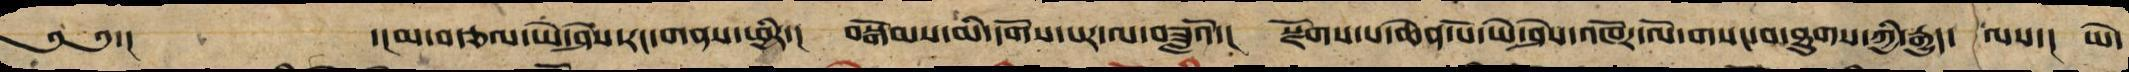༄༅་།  ་།མ་བཙལ་ཡེ་ཤེས་རང་གནས་ཕྱིར་། བསྒོམ་མི་དགོས་པར་ལ་བཟླའོ་། སྫོགས་པ་ཆེན་པོ་ཡེ་ཤེས་འཁོར་ལོ་གསང་བ་ཐུགས་ཀྱི་རྒྱུད་ལས་། ཡེ་
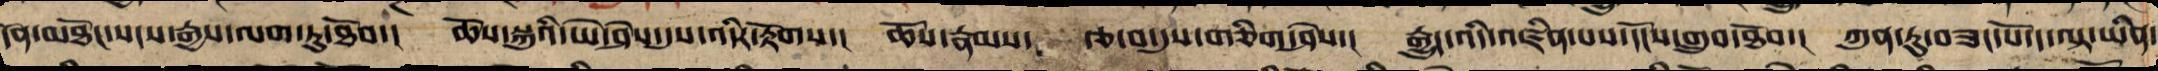དོན་མཐོང་སངས་རྒྱས་ལག་ཏུ་ཐོབ་། ཆོས་སྐུའི་ཡེ་ཤེས་དུས་འདིར་རྟོགས་། ཆོས་རྣམས་རྩ་བ་དུས་གཅིག་ཤེས་། རྒྱུད་འདི་འཛིན་པས་དངོས་གྲུབ་ཐོབ་། ཀུན་ཏུ་བཟང་པོ་ད་ལྟ་ཡིན་
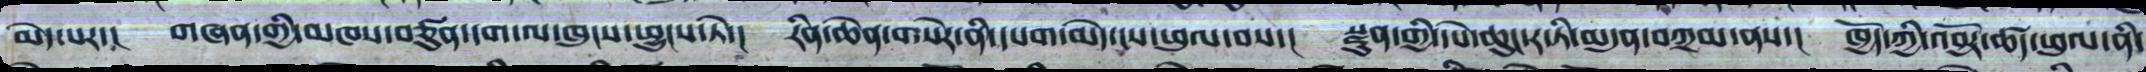མེད་པར་།  གཞན་གྱི་མཁས་བཙུན་དག་ལ་ཁུངས་ཕྱུངས་ཏེ་།  རིན་ཆེན་གསེར་ནི་དཔག་མེད་ངས་ཕུལ་བས་།  སྫུན་གྱི་དཔེ་ཆུང་ར་ཏི་མདུན་བཀྲམ་ནས་།  ཁྱོད་ཀྱི་འབྱོར་ཚད་ཕུལ་ནི་
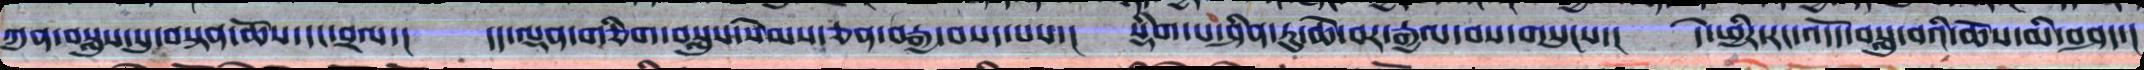ཀུན་བསླུས་སུ་བསྟན་ཆོས་དང་བྲལ་།   དད་ལྡན་གཅིག་བསླུས་སེམས་ཅན་བརྒྱ་བསད་པས་།   སྡིག་པ་ཤིན་ཏུ་ཆེ་བར་རྒྱལ་བས་གསུངས་།   དེ་ཕྱིར་རང་འདོད་བསླུ་བའི་ཆོས་མི་བཤད་།
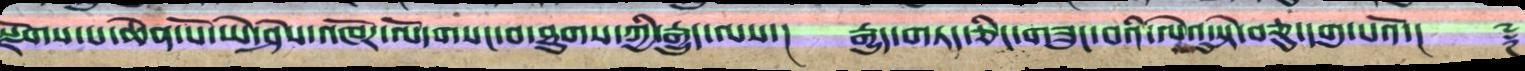སྫོགས་པ་ཆེན་པོ་ཡེ་ཤེས་འཁོར་ལོ་གསང་བ་ཐུགས་ཀྱི་རྒྱུད་ལས་།   རྒྱུད་གཏད་ཅིང་གཟུང་བའི་ལེའུ་སྟེ་བཅུ་དགུ་པའོ་།།     ༈
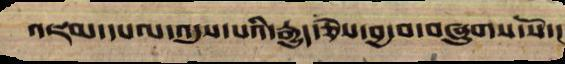འཇམ་དཔལ་འདུས་པའི་རྒྱུད་ཅེས་བྱ་བ་བཞུགས་སོ་།
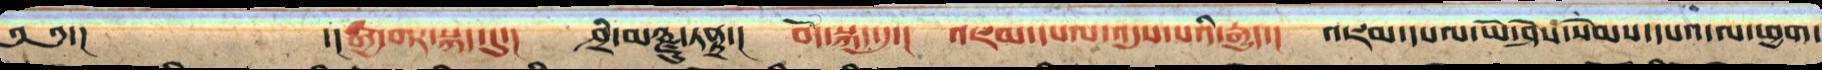༄༄་།           ་།རྒྱ་གར་སྐད་དུ།   ཤྲཱི་མཉྫུ་ཏནྟྲ་།  བོད་སྐད་དུ།  འཇམ་དཔལ་འདུས་པའི་རྒྱུད་།  འཇམ་དཔལ་ཡེ་ཤེས་སེམས་དཔའ་ལ་ཕྱག་
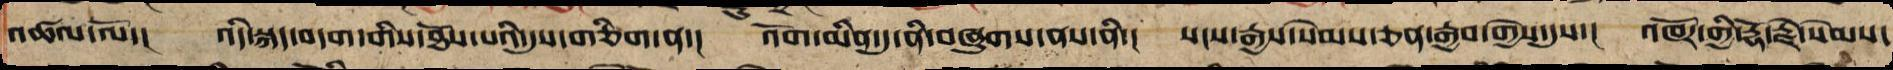འཚལ་ལོ་།  འདི་སྐད་བདག་གིས་ཐོས་པའི་དུས་གཅིག་ན་།  འོག་མིན་དུ་ནི་བཞུགས་ནས་ནི་།  སངས་རྒྱས་སེམས་ཅན་རྒྱབ་གྱེས་དུས་།  འཁོར་གྱི་རྡོ་རྗེ་སེམས་
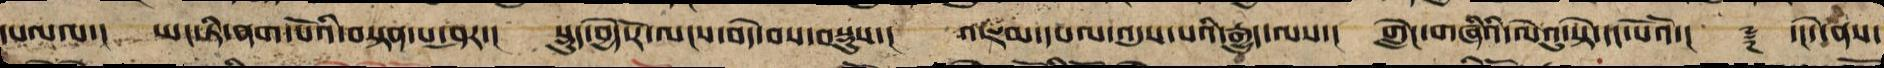དཔའ་ལ་།  ཡང་ཏི་ནག་པོའི་བསྟན་པ་ཤར་།  སྡུད་བྱེད་རོ་ལངས་བདེ་བས་བསྡུས་།  འཇམ་དཔལ་འདུས་པའི་རྒྱུད་ལས་། གླེང་གཞིའི་ལེའུ་སྟེ་དང་པོའོ་།།   ༈  ་།།དེ་ནས་
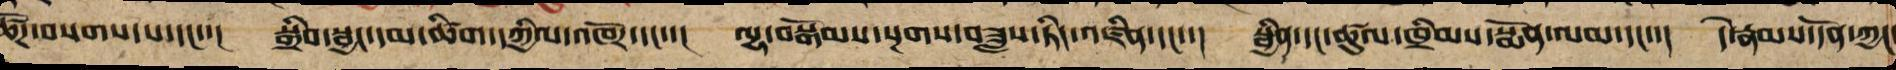ཚོཌ་བསགས་པ་དང་།  སྒྲིབ་སྦྱང་དམ་ཚིག་དཀྱིལ་འཁོར་དང་་།  ལྷ་བསྒོམ་སྔགས་བཟླས་ཏིང་འཛིན་དང་་།  སྦྱིན་དང་ཚུལ་ཁྲིམས་སྨོན་ལམ་དང་་།  དེ་རྣམས་དོན་ཀྱང
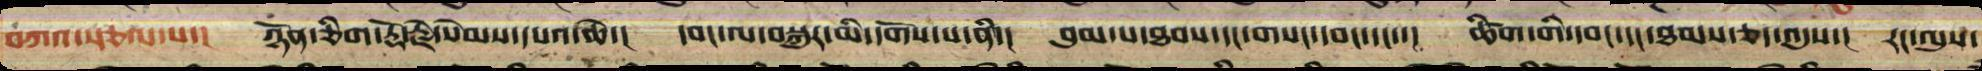བཀའ་སྩལ་པ་། ཉོན་ཅིག་རྡོ་རྗེ་སེམས་དཔའ་ཆེ་། དབང་ལ་བསྐུར་མི་དགོས་པ་ནི་། བུམ་པ་ཐབས་དང་གསང་དབང་དང་་། ཚིག་གི་དབང་དང་ཐམས་ཅད་འདུས་། རང་ལུས་
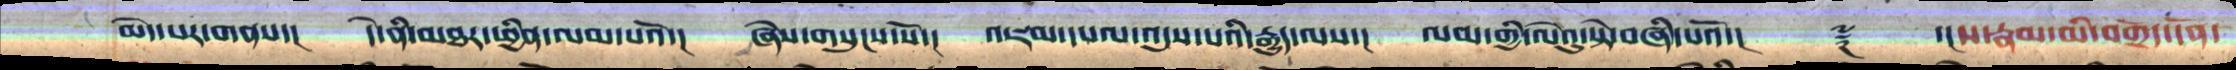མེད་པར་གནས་། དེ་ནི་མཐར་ཕྱིན་ལམ་པའོ་། ཞེས་གསུངས་སོ་། འཇམ་དཔལ་འདུས་པའི་རྒྱུད་ལས་། ལམ་གྱི་ལེའུ་སྟེ་བཞི་པའོ་།། ༈ །་།ས་ལམ་མི་བགྲོད་དོན་
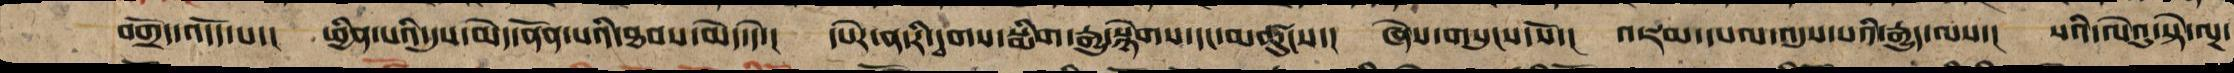བགྲོད་འདོད་པ་། ཕྱིན་པའི་དུས་མེད་ནོན་པའི་ཐབས་མེད་དེ་། དཔེར་ན་རི་དྭགས་སྨིག་རྒྱུ་བསྙེགས་དང་མཚུངས་། ཞེས་གསུངས་སོ་། འཇམ་དཔལ་འདུས་པའི་རྒྱུད་ལས་། སའི་ལེའུ་སྟེ་ལྔ་
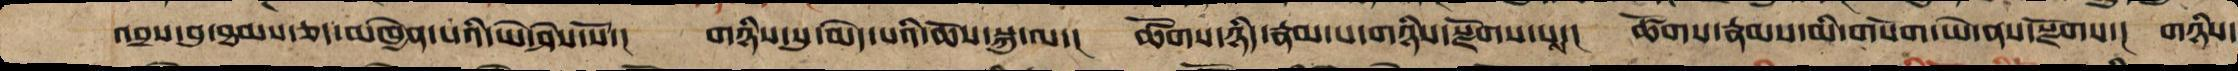འབྲས་བུ་ཐམས་ཅད་མཁྱེན་པའི་ཡེ་ཤེས་སོ་། གཉིས་སུ་མེད་པའི་ཆོས་སྐུ་ལ་། ཚོགས་གཉིས་རྣམ་པ་གཉིསསྫོགས་པས་། ཚོགས་རྣམས་མི་གསོག་ཡེ་ནས་སྫོགས་། གཉིས་
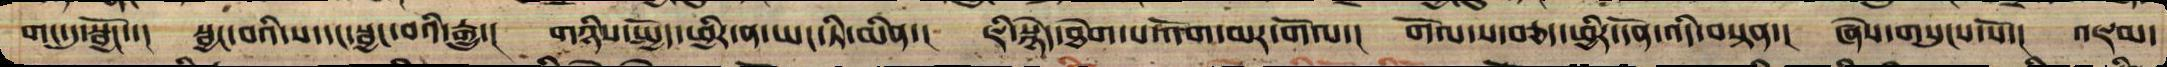གང་དུ་སྦྱོང་་།  སྦྱང་བའི་ས་དང་སྦྱོང་བའི་རྒྱུ་།  གཉིས་སྤྱོད་ཕྱིར་ན་ཡང་ཏི་མིན་།  ཇི་སྙེད་ཐེག་པ་འོག་མར་གོལ་།  གོལ་ས་བཅད་ཕྱིར་དོན་འདི་བསྟན་།   ཞེས་གསུངས་སོ་།  འཇམ་
